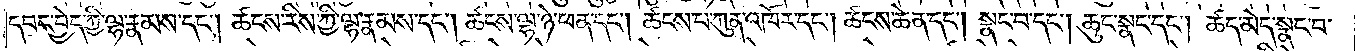དབང་བྱེད་ཀྱི་ལྷ་རྣམས་དང༌། ཚངས་རིས་ཀྱི་ལྷ་རྣམས་དང༌། ཚངས་ལྷ་ཉེ་ཕན་དང༌། ཚངས་པ་ཀུན་འཁོར་དང༌། ཚངས་ཆེན་དང༌། སྣང་བ་དང༌། ཆུང་སྣང་དང༌། ཚད་མེད་སྣང་བ་
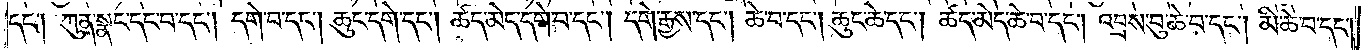དང༌། ཀུན་སྣང་དང་བ་དང༌། དགེ་བ་དང༌། ཆུང་དགེ་དང༌། ཚད་མེད་དགེ་བ་དང༌། དགེ་རྒྱས་དང༌། ཆེ་བ་དང༌། ཆུང་ཆེ་དང༌། ཚད་མེད་ཆེ་བ་དང༌། འབྲས་བུ་ཆེ་བ་དང༌། མི་ཆེ་བ་དང༌།
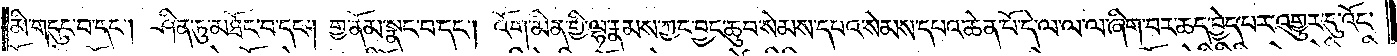མི་གདུང་བ་དང༌། ཤིན་ཏུ་མཐོང་བ་དང༌། གྱ་ནོམ་སྣང་བ་དང༌། འོག་མིན་གྱི་ལྷ་རྣམས་ཀྱང་བྱང་ཆུབ་སེམས་དཔའ་སེམས་དཔའ་ཆེན་པོ་དེ་ལ་ལ་ལ་ཞིག་བར་ཆད་བྱེད་པར་འགྱུར་དུ་འོང་
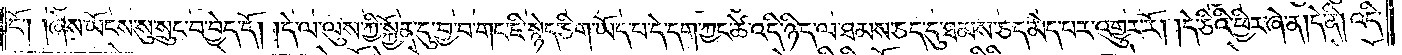ངོ༌། །ཞེས་ཡོངས་སུ་སྲུང་བ་བྱེད་དོ། །དེ་ལ་ལུས་ཀྱི་སྐྱོན་དུ་བྱ་བ་གང་ཇི་སྙེད་ཅིག་ཡོད་པ་དེ་དག་ཀྱང་ཚེ་འདི་ཉིད་ལ་ཐམས་ཅད་དུ་ཐམས་ཅད་མེད་པར་འགྱུར་རོ། །དེ་ཅིའི་ཕྱིར་ཞེ་ན། དེ་ནི། འདི་
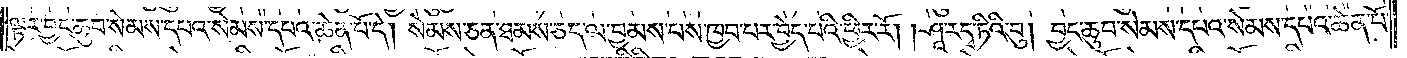ལྟར་བྱང་ཆུབ་སེམས་དཔའ་སེམས་དཔའ་ཆེན་པོ་དེ། སེམས་ཅན་ཐམས་ཅད་ལ་བྱམས་པས་ཁྱབ་པར་བྱེད་པའི་ཕྱིར་རོ། །ཤཱ་ར་དྭ་ཏིའི་བུ། བྱང་ཆུབ་སེམས་དཔའ་སེམས་དཔའ་ཆེན་པོ་
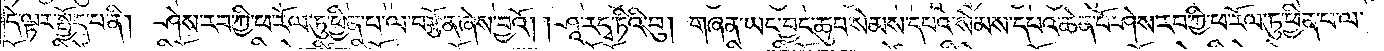དེ་ལྟར་སྤྱོད་པ་ནི། ཤེས་རབ་ཀྱི་ཕ་རོལ་ཏུ་ཕྱིན་པ་ལ་བརྩོན་ཞེས་བྱའོ། །ཤཱ་ར་དྭ་ཏིའི་བུ། གཞན་ཡང་བྱང་ཆུབ་སེམས་དཔའ་སེམས་དཔའ་ཆེན་པོ་ཤེས་རབ་ཀྱི་ཕ་རོལ་ཏུ་ཕྱིན་པ་ལ་
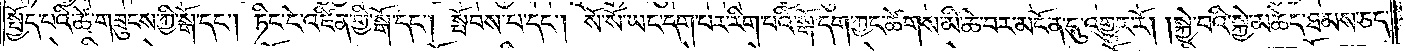སྤྱོད་པའི་ཚེ་གཟུངས་ཀྱི་སྒོ་དང༌། ཏིང་ངེ་འཛིན་གྱི་སྒོ་དང༌། སྤོབས་པ་དང༌། སོ་སོ་ཡང་དག་པར་རིག་པའི་སྒོ་དག་ཀྱང་ཚེགས་མི་ཆེ་བར་མངོན་དུ་འགྱུར་རོ། །སྐྱེ་བའི་སྐྱེ་མཆེད་ཐམས་ཅད་
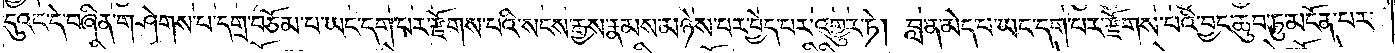དུའང་དེ་བཞིན་གཤེགས་པ་དགྲ་བཅོམ་པ་ཡང་དག་པར་རྫོགས་པའི་སངས་རྒྱས་རྣམས་མཉེས་པར་བྱེད་པར་འགྱུར་ཏེ། བླ་ན་མེད་པ་ཡང་དག་པར་རྫོགས་པའི་བྱང་ཆུབ་ཏུ་མངོན་པར་
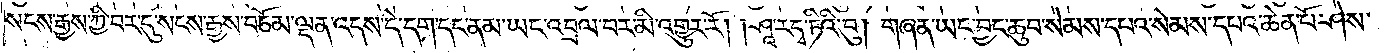སངས་རྒྱས་ཀྱི་བར་དུ་སངས་རྒྱས་བཅོམ་ལྡན་འདས་དེ་དག་དང་ནམ་ཡང་འབྲལ་བར་མི་འགྱུར་རོ། །ཤཱ་ར་དྭ་ཏིའི་བུ། གཞན་ཡང་བྱང་ཆུབ་སེམས་དཔའ་སེམས་དཔའ་ཆེན་པོ་ཤེས་
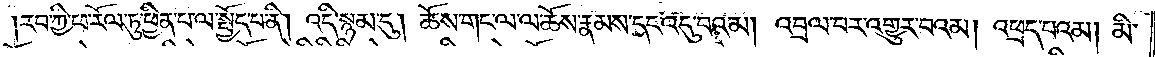རབ་ཀྱི་ཕ་རོལ་ཏུ་ཕྱིན་པ་ལ་སྤྱོད་པ་ནི། འདི་སྙམ་དུ། ཆོས་གང་ལ་ལ་ཆོས་རྣམས་དང་འདུ་བའམ། འབྲལ་བར་འགྱུར་བའམ། འཕྲད་པའམ། མི་
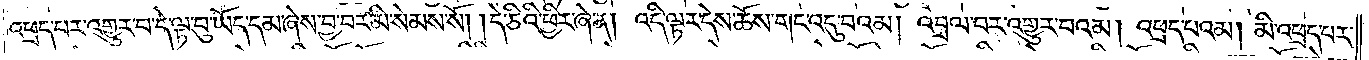འཕྲད་པར་འགྱུར་བ་དེ་ལྟ་བུ་ཡོད་དམ་ཞེས་བྱ་བར་མི་སེམས་སོ། །དེ་ཅིའི་ཕྱིར་ཞེ་ན། འདི་ལྟར་དེས་ཆོས་གང་འདུ་བའམ། འབྲལ་བར་འགྱུར་བའམ། འཕྲད་པའམ། མི་འཕྲད་པར་
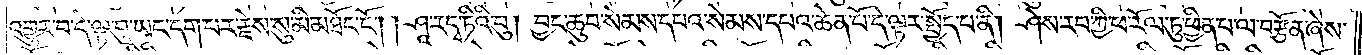འགྱུར་བ་དེ་ལྟ་བུ་ཡང་དག་པར་རྗེས་སུ་མི་མཐོང་ངོ༌། །ཤཱ་ར་དྭ་ཏིའི་བུ། བྱང་ཆུབ་སེམས་དཔའ་སེམས་དཔའ་ཆེན་པོ་དེ་ལྟར་སྤྱོད་པ་ནི། ཤེས་རབ་ཀྱི་ཕ་རོལ་ཏུ་ཕྱིན་པ་ལ་བརྩོན་ཞེས་
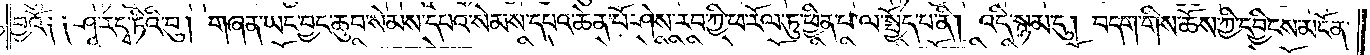བྱའོ༑ ༑ཤཱ་ར་དྭ་ཏིའི་བུ། གཞན་ཡང་བྱང་ཆུབ་སེམས་དཔའ་སེམས་དཔའ་ཆེན་པོ་ཤེས་རབ་ཀྱི་ཕ་རོལ་ཏུ་ཕྱིན་པ་ལ་སྤྱོད་པ་ནི། འདི་སྙམ་དུ། བདག་གིས་ཆོས་ཀྱི་དབྱིངས་མངོན་
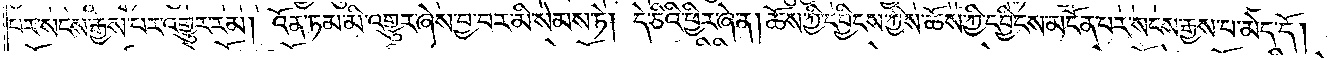པར་སངས་རྒྱས་པར་འགྱུར་རམ། འོན་ཏམ་མི་འགྱུར་ཞེས་བྱ་བར་མི་སེམས་ཏེ། དེ་ཅིའི་ཕྱིར་ཞེ་ན། ཆོས་ཀྱི་དབྱིངས་ཀྱིས་ཆོས་ཀྱི་དབྱིངས་མངོན་པར་སངས་རྒྱས་པ་མེད་དོ། །
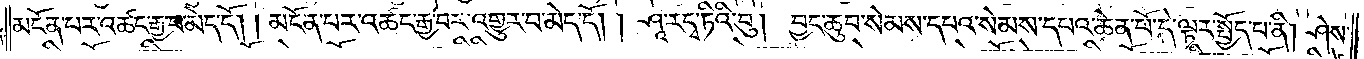མངོན་པར་འཚང་རྒྱ་བ་མེད་དོ། །མངོན་པར་འཚང་རྒྱ་བར་འགྱུར་བ་མེད་དོ། །ཤཱ་རདྭ་ཏིའི་བུ། བྱང་ཆུབ་སེམས་དཔའ་སེམས་དཔའ་ཆེན་པོ་དེ་ལྟར་སྤྱོད་པ་ནི། ཤེས་
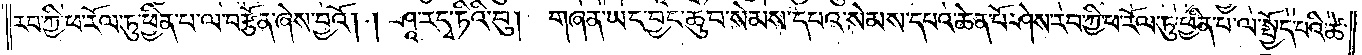རབ་ཀྱི་ཕ་རོལ་ཏུ་ཕྱིན་པ་ལ་བརྩོན་ཞེས་བྱའོ། །ཤཱ་རདྭ་ཏིའི་བུ། གཞན་ཡང་བྱང་ཆུབ་སེམས་དཔའ་སེམས་དཔའ་ཆེན་པོ་ཤེས་རབ་ཀྱི་ཕ་རོལ་ཏུ་ཕྱིན་པ་ལ་སྤྱོད་པའི་ཚེ་
